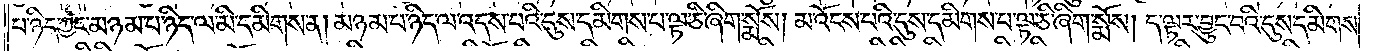པ་ཉིད་ཀྱང་མཉམ་པ་ཉིད་ལ་མི་དམིགས་ན། མཉམ་པ་ཉིད་ལ་འདས་པའི་དུས་དམིགས་པ་ལྟ་ཅི་ཞིག་སྨོས། མ་འོངས་པའི་དུས་དམིགས་པ་ལྟ་ཅི་ཞིག་སྨོས། ད་ལྟར་བྱུང་བའི་དུས་དམིགས་
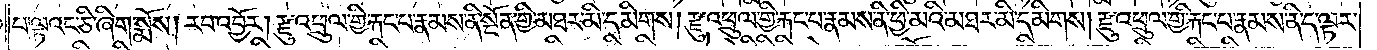པ་ལྟའང་ཅི་ཞིག་སྨོས། རབ་འབྱོར། རྫུ་འཕྲུལ་གྱི་རྐང་པ་རྣམས་ནི་སྔོན་གྱི་མཐར་མི་དམིགས། རྫུ་འཕྲུལ་གྱི་རྐང་པ་རྣམས་ནི་ཕྱི་མའི་མཐར་མི་དམིགས། རྫུ་འཕྲུལ་གྱི་རྐང་པ་རྣམས་ནི་ད་ལྟར་
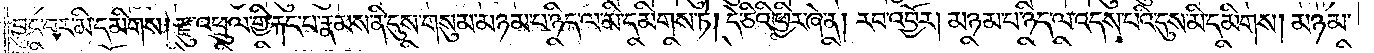བྱུང་བར་མི་དམིགས། རྫུ་འཕྲུལ་གྱི་རྐང་པ་རྣམས་ནི་དུས་གསུམ་མཉམ་པ་ཉིད་ལ་མི་དམིགས་ཏེ། དེ་ཅིའི་ཕྱིར་ཞེ་ན། རབ་འབྱོར། མཉམ་པ་ཉིད་ལ་འདས་པའི་དུས་མི་དམིགས། མཉམ་
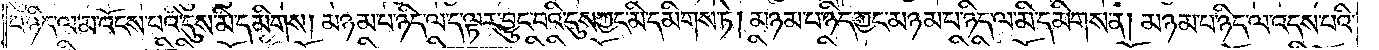པ་ཉིད་ལ་མ་འོངས་པའི་དུས་མི་དམིགས། མཉམ་པ་ཉིད་ལ་ད་ལྟར་བྱུང་བའི་དུས་ཀྱང་མི་དམིགས་ཏེ། མཉམ་པ་ཉིད་ཀྱང་མཉམ་པ་ཉིད་ལ་མི་དམིགས་ན། མཉམ་པ་ཉིད་ལ་འདས་པའི་
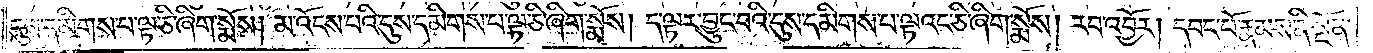དུས་དམིགས་པ་ལྟ་ཅི་ཞིག་སྨོས། མ་འོངས་པའི་དུས་དམིགས་པ་ལྟ་ཅི་ཞིག་སྨོས། ད་ལྟར་བྱུང་བའི་དུས་དམིགས་པ་ལྟའང་ཅི་ཞིག་སྨོས། རབ་འབྱོར། དབང་པོ་རྣམས་ནི་སྔོན་
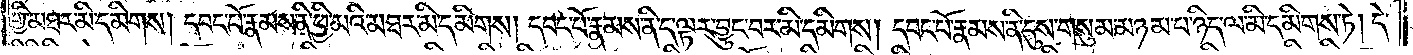གྱི་མཐར་མི་དམིགས། དབང་པོ་རྣམས་ནི་ཕྱི་མའི་མཐར་མི་དམིགས། དབང་པོ་རྣམས་ནི་ད་ལྟར་བྱུང་བར་མི་དམིགས། དབང་པོ་རྣམས་ནི་དུས་གསུམ་མཉམ་པ་ཉིད་ལ་མི་དམིགས་ཏེ། དེ་
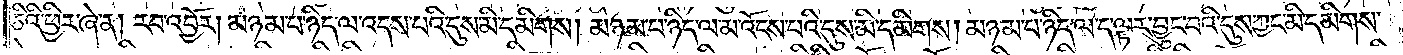ཅིའི་ཕྱིར་ཞེ་ན། རབ་འབྱོར། མཉམ་པ་ཉིད་ལ་འདས་པའི་དུས་མི་དམིགས། མཉམ་པ་ཉིད་ལ་མ་འོངས་པའི་དུས་མི་དམིགས། མཉམ་པ་ཉིད་ལ་ད་ལྟར་བྱུང་བའི་དུས་ཀྱང་མི་དམིགས་
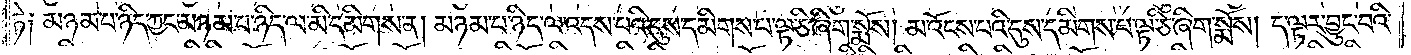ཏེ། མཉམ་པ་ཉིད་ཀྱང་མཉམ་པ་ཉིད་ལ་མི་དམིགས་ན། མཉམ་པ་ཉིད་ལ་འདས་པའི་དུས་དམིགས་པ་ལྟ་ཅི་ཞིག་སྨོས། མ་འོངས་པའི་དུས་དམིགས་པ་ལྟ་ཅི་ཞིག་སྨོས། ད་ལྟར་བྱུང་བའི་
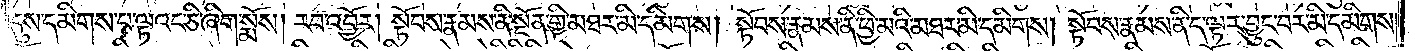དུས་དམིགས་པ་ལྟའང་ཅི་ཞིག་སྨོས། རབ་འབྱོར། སྟོབས་རྣམས་ནི་སྔོན་གྱི་མཐར་མི་དམིགས། སྟོབས་རྣམས་ནི་ཕྱི་མའི་མཐར་མི་དམིགས། སྟོབས་རྣམས་ནི་ད་ལྟར་བྱུང་བར་མི་དམིགས།
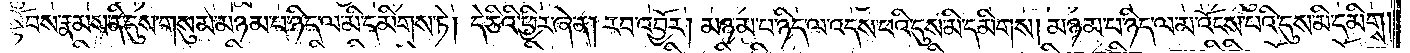སྟོབས་རྣམས་ནི་དུས་གསུམ་མཉམ་པ་ཉིད་ལ་མི་དམིགས་ཏེ། དེ་ཅིའི་ཕྱིར་ཞེ་ན། རབ་འབྱོར། མཉམ་པ་ཉིད་ལ་འདས་པའི་དུས་མི་དམིགས། མཉམ་པ་ཉིད་ལ་མ་འོངས་པའི་དུས་མི་དམིགས།
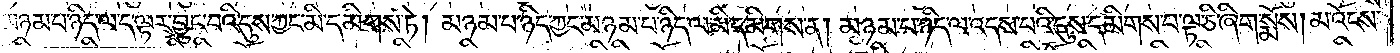མཉམ་པ་ཉིད་ལ་ད་ལྟར་བྱུང་བའི་དུས་ཀྱང་མི་དམིགས་ཏེ། མཉམ་པ་ཉིད་ཀྱང་མཉམ་པ་ཉིད་ལ་མི་དམིགས་ན། མཉམ་པ་ཉིད་ལ་འདས་པའི་དུས་དམིགས་པ་ལྟ་ཅི་ཞིག་སྨོས། མ་འོངས་
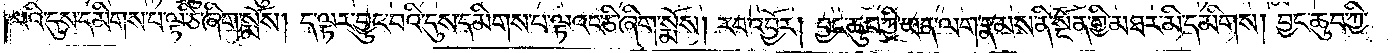པའི་དུས་དམིགས་པ་ལྟ་ཅི་ཞིག་སྨོས། ད་ལྟར་བྱུང་བའི་དུས་དམིགས་པ་ལྟའང་ཅི་ཞིག་སྨོས། རབ་འབྱོར། བྱང་ཆུབ་ཀྱི་ཡན་ལག་རྣམས་ནི་སྔོན་གྱི་མཐར་མི་དམིགས། བྱང་ཆུབ་ཀྱི་
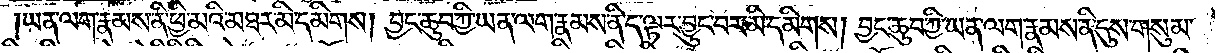ཡན་ལག་རྣམས་ནི་ཕྱི་མའི་མཐར་མི་དམིགས། བྱང་ཆུབ་ཀྱི་ཡན་ལག་རྣམས་ནི་ད་ལྟར་བྱུང་བར་མི་དམིགས། བྱང་ཆུབ་ཀྱི་ཡན་ལག་རྣམས་ནི་དུས་གསུམ་
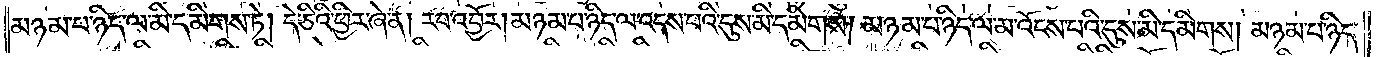མཉམ་པ་ཉིད་ལ་མི་དམིགས་ཏེ། དེ་ཅིའི་ཕྱིར་ཞེ་ན། རབ་འབྱོར། མཉམ་པ་ཉིད་ལ་འདས་པའི་དུས་མི་དམིགས། མཉམ་པ་ཉིད་ལ་མ་འོངས་པའི་དུས་མི་དམིགས། མཉམ་པ་ཉིད་
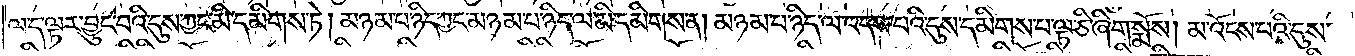ལ་ད་ལྟར་བྱུང་བའི་དུས་ཀྱང་མི་དམིགས་ཏེ། མཉམ་པ་ཉིད་ཀྱང་མཉམ་པ་ཉིད་ལ་མི་དམིགས་ན། མཉམ་པ་ཉིད་ལ་འདས་པའི་དུས་དམིགས་པ་ལྟ་ཅི་ཞིག་སྨོས། མ་འོངས་པའི་དུས་
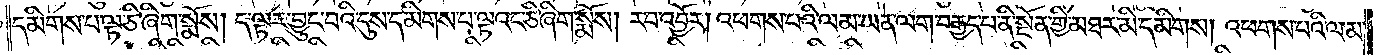དམིགས་པ་ལྟ་ཅི་ཞིག་སྨོས། ད་ལྟར་བྱུང་བའི་དུས་དམིགས་པ་ལྟའང་ཅི་ཞིག་སྨོས། རབ་འབྱོར། འཕགས་པའི་ལམ་ཡན་ལག་བརྒྱད་པ་ནི་སྔོན་གྱི་མཐར་མི་དམིགས། འཕགས་པའི་ལམ་
